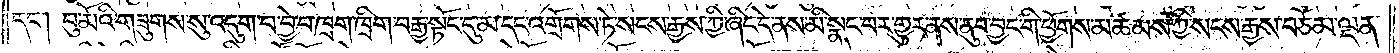དང༌། བུ་མོའི་གཟུགས་སུ་འདུག་པ་བྱེ་བ་ཁྲག་ཁྲིག་བརྒྱ་སྟོང་དུ་མ་དང་འགྲོགས་ཏེ་སངས་རྒྱས་ཀྱི་ཞིང་དེ་ནས་མི་སྣང་བར་གྱུར་ནས་ནུབ་བྱང་གི་ཕྱོགས་མཚམས་ཀྱི་སངས་རྒྱས་བཅོམ་ལྡན་
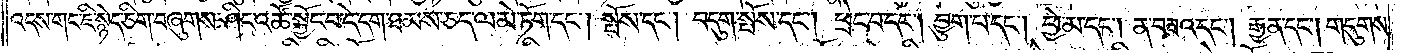འདས་གང་ཇི་སྙེད་ཅིག་བཞུགས་ཤིང་འཚོ་སྐྱོང་བ་དེ་དག་ཐམས་ཅད་ལ་མེ་ཏོག་དང༌། སྤོས་དང༌། བདུག་སྤོས་དང༌། ཕྲེང་བ་དང༌། བྱུག་པ་དང༌། ཕྱེ་མ་དང༌། ན་བཟའ་དང༌། རྒྱན་དང༌། གདུགས་
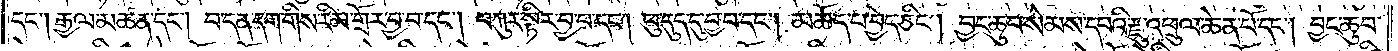དང༌། རྒྱལ་མཚན་དང༌། བ་དན་དག་གིས་རིམ་གྲོར་བྱ་བ་དང༌། བཀུར་སྟིར་བྱ་བ་དང༌། ཕུ་དུད་དུ་བྱ་བ་དང༌། མཆོད་པ་བྱེད་ཅིང༌། བྱང་ཆུབ་སེམས་དཔའི་རྫུ་འཕྲུལ་ཆེན་པོ་དང༌། བྱང་ཆུབ་
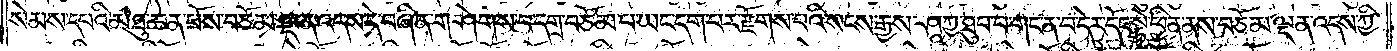སེམས་དཔའི་མཐུ་ཆེན་པོས་བཅོམ་ལྡན་འདས་དེ་བཞིན་གཤེགས་པ་དགྲ་བཅོམ་པ་ཡང་དག་པར་རྫོགས་བའི་སངས་རྒྱས་ཤཱཀྱ་ཐུབ་པ་གང་ན་བ་དེར་དོང་སྟེ་ཕྱིན་ནས་བཅོམ་ལྡན་འདས་ཀྱི་
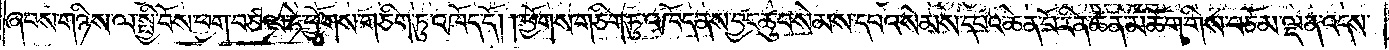ཞབས་གཉིས་ལ་སྤྱི་བོས་ཕྱག་བཙལ་ཏེ་ཕྱོགས་གཅིག་ཏུ་འཁོད་དོ། །ཕྱོགས་གཅིག་ཏུ་འཁོད་ནས་བྱང་ཆུབ་སེམས་དཔའ་སེམས་དཔའ་ཆེན་པོ་རིན་ཆེན་མཆོག་གིས་བཅོམ་ལྡན་འདས་
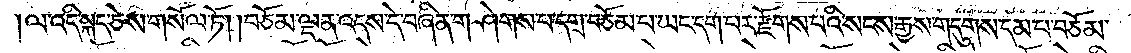ལ་འདི་སྐད་ཅེས་གསོལ་ཏོ། །བཅོམ་ལྡན་འདས་དེ་བཞིན་གཤེགས་པ་དགྲ་བཅོམ་པ་ཡང་དག་པར་རྫོགས་པའི་སངས་རྒྱས་གདུགས་དམ་པ་བཅོམ་
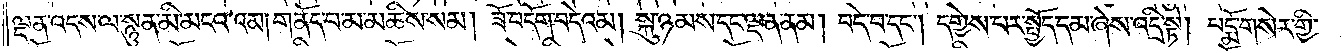ལྡན་འདས་ལ་སྙུན་མི་མངའ་འམ། གནོད་པ་མ་མཆིས་སམ། ཟོ་བདོག་བདེའམ། སྐུ་ཉམས་དང་ལྡན་ནམ། བདེ་བ་དང༌། དགྱེས་པར་སྤྱོད་དམ་ཞེས་འདྲི་སྟེ། པདྨོ་གསེར་གྱི་
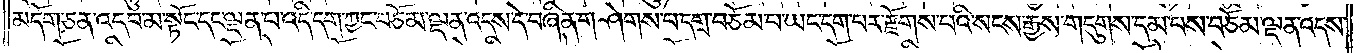མདོག་ཅན་འདབ་མ་སྟོང་དང་ལྡན་པ་འདི་དག་ཀྱང་བཅོམ་ལྡན་འདས་དེ་བཞིན་གཤེགས་པ་དགྲ་བཅོམ་པ་ཡང་དག་པར་རྫོགས་པའི་སངས་རྒྱས་གདུགས་དམ་པས་བཅོམ་ལྡན་འདས་
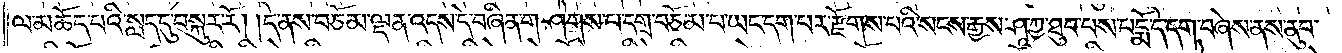ལ་མཆོད་པའི་སླད་དུ་བསྐུར་རོ། །དེ་ནས་བཅོམ་ལྡན་འདས་དེ་བཞིན་གཤེགས་པ་དགྲ་བཅོམ་པ་ཡང་དག་པར་རྫོགས་པའི་སངས་རྒྱས་ཤཱཀྱ་ཐུབ་པས་པདྨོ་དེ་དག་བཞེས་ནས་ནུབ་
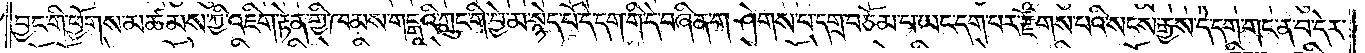བྱང་གི་ཕྱོགས་མཚམས་ཀྱི་འཇིག་རྟེན་གྱི་ཁམས་གངྒཱའི་ཀླུང་གི་བྱེ་མ་སྙེད་པོ་དེ་དག་གི་དེ་བཞིན་གཤེགས་པ་དགྲ་བཅོམ་པ་ཡང་དག་པར་རྫོགས་པའི་སངས་རྒྱས་དེ་དག་གང་ན་བ་དེར་
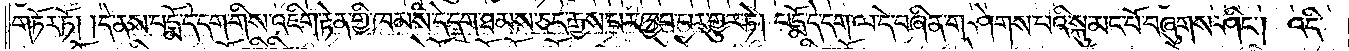གཏོར་ཏོ། །དེ་ནས་པདྨོ་དེ་དག་གིས་འཇིག་རྟེན་གྱི་ཁམས་དེ་དག་ཐམས་ཅད་རྒྱས་པར་ཁྱབ་པར་གྱུར་ཏེ། པདྨོ་དེ་དག་ལ་དེ་བཞིན་གཤེགས་པའི་སྐུ་མང་པོ་བཞུགས་ཤིང༌། འདི་
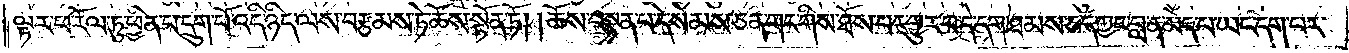ལྟར་ཕ་རོལ་ཏུ་ཕྱིན་པ་དྲུག་པོ་འདི་ཉིད་ལས་བརྩམས་ཏེ་ཆོས་སྟོན་ཏོ། །ཆོས་བསྟན་པ་དེ་སེམས་ཅན་གང་གིས་ཐོས་པར་གྱུར་པ་དེ་དག་ཐམས་ཅད་ཀྱང་བླ་ན་མེད་པ་ཡང་དག་པར་
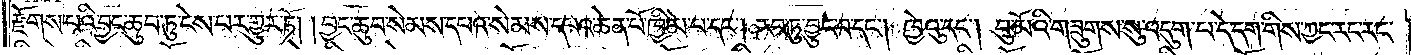རྫོགས་པའི་བྱང་ཆུབ་ཏུ་ངེས་པར་གྱུར་ཏོ། །བྱང་ཆུབ་སེམས་དཔའ་སེམས་དཔའ་ཆེན་པོ་ཁྱིམ་པ་དང༌། རབ་ཏུ་བྱུང་བ་དང༌། ཁྱེའུ་དང༌། བུ་མོའི་གཟུགས་སུ་འདུག་པ་དེ་དག་གིས་ཀྱང་རང་རང་
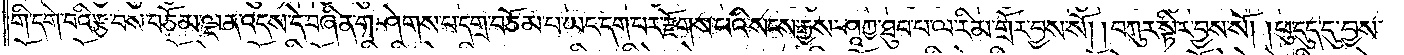གི་དགེ་བའི་རྩ་བས་བཅོམ་ལྡན་འདས་དེ་བཞིན་གཤེགས་པ་དགྲ་བཅོམ་པ་ཡང་དག་པར་རྫོགས་པའི་སངས་རྒྱས་ཤཱཀྱ་ཐུབ་པ་ལ་རིམ་གྲོར་བྱས་སོ། །བཀུར་སྟིར་བྱས་སོ། །ཕུ་དུད་དུ་བྱས་
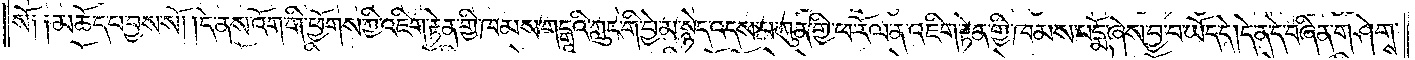སོ༑ ༑མཆོད་པ་བྱས་སོ། །དེ་ནས་འོག་གི་ཕྱོགས་ཀྱི་འཇིག་རྟེན་གྱི་ཁམས་གངྒཱའི་ཀླུང་གི་བྱེ་མ་སྙེད་འདས་པ་ཀུན་གྱི་ཕ་རོལ་ན་འཇིག་རྟེན་གྱི་ཁམས་པདྨོ་ཞེས་བྱ་བ་ཡོད་དེ། དེ་ན་དེ་བཞིན་གཤེགས་
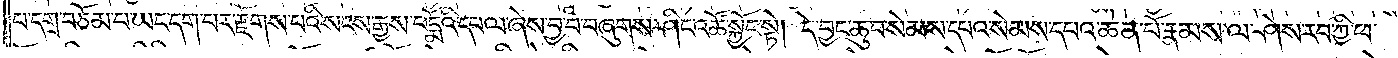པ་དགྲ་བཅོམ་པ་ཡང་དག་པར་རྫོགས་པའི་སངས་རྒྱས་པདྨོའི་དཔལ་ཞེས་བྱ་བ་བཞུགས་ཤིང་འཚོ་སྐྱོང་སྟེ། དེ་བྱང་ཆུབ་སེམས་དཔའ་སེམས་དཔའ་ཆེན་པོ་རྣམས་ལ་ཤེས་རབ་ཀྱི་ཕ་
